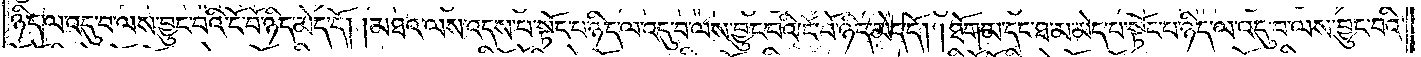ཉིད་ལ་འདུ་བ་ལས་བྱུང་བའི་ངོ་བོ་ཉིད་མེད་དོ། །མཐའ་ལས་འདས་པ་སྟོང་པ་ཉིད་ལ་འདུ་བ་ལས་བྱུང་བའི་ངོ་བོ་ཉིད་མེད་དོ། །ཐོག་མ་དང་ཐ་མ་མེད་པ་སྟོང་པ་ཉིད་ལ་འདུ་བ་ལས་བྱུང་བའི་
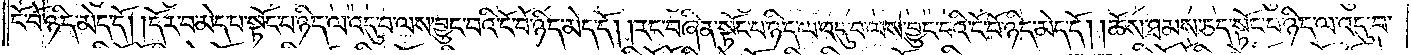ངོ་བོ་ཉིད་མེད་དོ། དོར་བ་མེད་པ་སྟོང་པ་ཉིད་ལ་འདུ་བ་ལས་བྱུང་བའི་ངོ་བོ་ཉིད་མེད་དོ། །རང་བཞིན་སྟོང་པ་ཉིད་ལ་འདུ་པ་ལས་བྱུང་བའི་ངོ་བོ་ཉིད་མེད་དོ། །ཆོས་ཐམས་ཅད་སྟོང་པ་ཉིད་ལ་འདུ་བ་
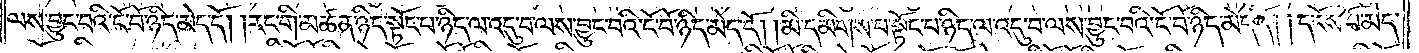ལས་བྱུང་བའི་ངོ་བོ་ཉིད་མེད་དོ། །རང་གི་མཚན་ཉིད་སྟོང་པ་ཉིད་ལ་འདུ་བ་ལས་བྱུང་བའི་ངོ་བོ་ཉིད་མེད་དོ། །མི་དམིགས་པ་སྟོང་པ་ཉིད་ལ་འདུ་བ་ལས་བྱུང་བའི་ངོ་བོ་ཉིད་མེད་དོ། །དངོས་པོ་མེད་
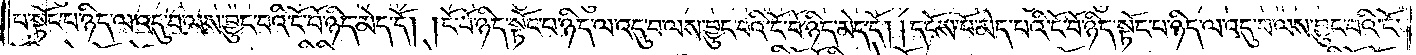པ་སྟོང་པ་ཉིད་ལ་འདུ་བ་ལས་བྱུང་བའི་ངོ་བོ་ཉིད་མེད་དོ། །ངོ་བོ་ཉིད་སྟོང་པ་ཉིད་ལ་འདུ་བ་ལས་བྱུང་བའི་ངོ་བོ་ཉིད་མེད་དོ། །དངོས་པོ་མེད་པའི་ངོ་བོ་ཉིད་སྟོང་པ་ཉིད་ལ་འདུ་བ་ལས་བྱུང་བའི་ངོ་
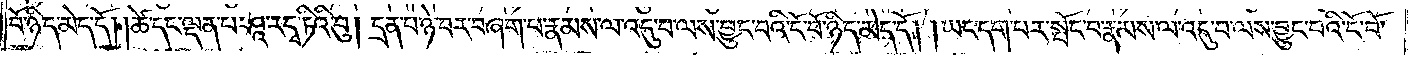བོ་ཉིད་མེད་དོ། །ཚེ་དང་ལྡན་པ་ཤཱ་ར་དྭ་ཏིའི་བུ། དྲན་པ་ཉེ་བར་བཞག་པ་རྣམས་ལ་འདུ་བ་ལས་བྱུང་བའི་ངོ་བོ་ཉིད་མེད་དོ། །ཡང་དག་པར་སྤོང་བ་རྣམས་ལ་འདུ་བ་ལས་བྱུང་བའི་ངོ་བོ་
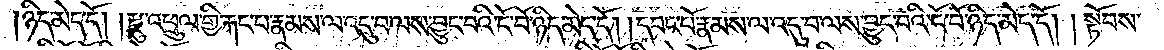ཉིད་མེད་དོ། །རྫུ་འཕྲུལ་གྱི་རྐང་པ་རྣམས་ལ་འདུ་བ་ལས་བྱུང་བའི་ངོ་བོ་ཉིད་མེད་དོ། །དབང་པོ་རྣམས་ལ་འདུ་བ་ལས་བྱུང་བའི་ངོ་བོ་ཉིད་མེད་དོ། །སྟོབས་
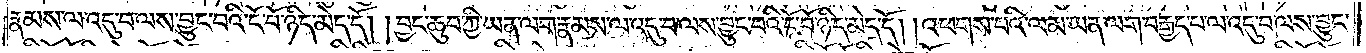རྣམས་ལ་འདུ་བ་ལས་བྱུང་བའི་ངོ་བོ་ཉིད་མེད་དོ། །བྱང་ཆུབ་ཀྱི་ཡན་ལག་རྣམས་ལ་འདུ་བ་ལས་བྱུང་བའི་ངོ་བོ་ཉིད་མེད་དོ། །འཕགས་པའི་ལམ་ཡན་ལག་བརྒྱད་པ་ལ་འདུ་བ་ལས་བྱུང་
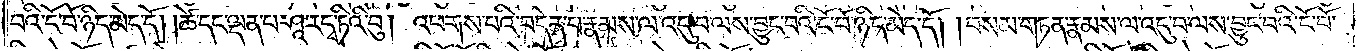བའི་ངོ་བོ་ཉིད་མེད་དོ། །ཚེ་དང་ལྡན་པ་ཤཱ་ར་དྭ་ཏིའི་བུ། འཕགས་པའི་བདེན་པ་རྣམས་ལ་འདུ་བ་ལས་བྱུང་བའི་ངོ་བོ་ཉིད་མེད་དོ། །བསམ་གཏན་རྣམས་ལ་འདུ་བ་ལས་བྱུང་བའི་ངོ་བོ་
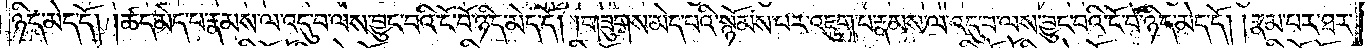ཉིད་མེད་དོ། །ཚད་མེད་པ་རྣམས་ལ་འདུ་བ་ལས་བྱུང་བའི་ངོ་བོ་ཉིད་མེད་དོ། །གཟུགས་མེད་པའི་སྙོམས་པར་འཇུག་པ་རྣམས་ལ་འདུ་བ་ལས་བྱུང་བའི་ངོ་བོ་ཉིད་མེད་དོ། །རྣམ་པར་ཐར་
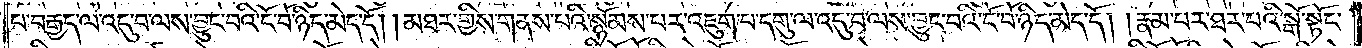པ་བརྒྱད་ལ་འདུ་བ་ལས་བྱུང་བའི་ངོ་བོ་ཉིད་མེད་དོ། །མཐར་གྱིས་གནས་པའི་སྙོམས་པར་འཇུག་པ་དགུ་ལ་འདུ་བ་ལས་བྱུང་བའི་ངོ་བོ་ཉིད་མེད་དོ། །རྣམ་པར་ཐར་པའི་སྒོ་སྟོང་
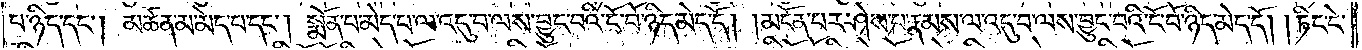པ་ཉིད་དང༌། མཚན་མ་མེད་པ་དང༌། སྨོན་པ་མེད་པ་ལ་འདུ་བ་ལས་བྱུང་བའི་ངོ་བོ་ཉིད་མེད་དོ། །མངོན་པར་ཤེས་པ་རྣམས་ལ་འདུ་བ་ལས་བྱུང་བའི་ངོ་བོ་ཉིད་མེད་དོ། །ཏིང་ངེ་
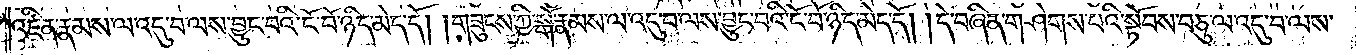འཛིན་རྣམས་ལ་འདུ་བ་ལས་བྱུང་བའི་ངོ་བོ་ཉིད་མེད་དོ། །གཟུངས་ཀྱི་སྒོ་རྣམས་ལ་འདུ་བ་ལས་བྱུང་བའི་ངོ་བོ་ཉིད་མེད་དོ། །དེ་བཞིན་གཤེགས་པའི་སྟོབས་བཅུ་ལ་འདུ་བ་ལས་
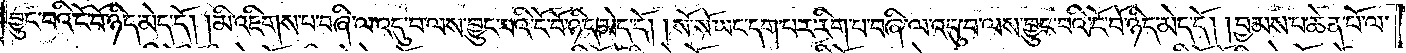བྱུང་བའི་ངོ་བོ་ཉིད་མེད་དོ། །མི་འཇིགས་པ་བཞི་ལ་འདུ་བ་ལས་བྱུང་བའི་ངོ་བོ་ཉིད་མེད་དོ། །སོ་སོ་ཡང་དག་པར་རིག་པ་བཞི་ལ་འདུ་བ་ལས་བྱུང་བའི་ངོ་བོ་ཉིད་མེད་དོ། །བྱམས་པ་ཆེན་པོ་ལ་
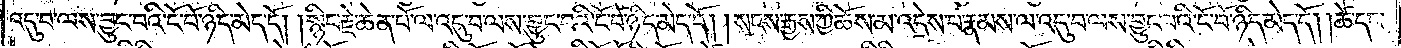འདུ་བ་ལས་བྱུང་བའི་ངོ་བོ་ཉིད་མེད་དོ། །སྙིང་རྗེ་ཆེན་པོ་ལ་འདུ་བ་ལས་བྱུང་བའི་ངོ་བོ་ཉིད་མེད་དོ། །སངས་རྒྱས་ཀྱི་ཆོས་མ་འདྲེས་པ་རྣམས་ལ་འདུ་བ་ལས་བྱུང་བའི་ངོ་བོ་ཉིད་མེད་དོ། །ཚེ་དང་
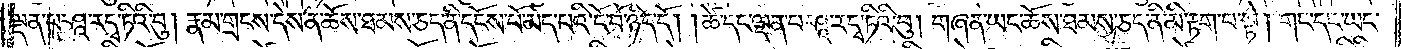ལྡན་པ་ཤཱ་ར་དྭ་ཏིའི་བུ། རྣམ་གྲངས་དེས་ན་ཆོས་ཐམས་ཅད་ནི་དངོས་པོ་མེད་པའི་ངོ་བོ་ཉིད་དོ། །ཚེ་དང་ལྡན་པ་ཤཱ་ར་དྭ་ཏིའི་བུ། གཞན་ཡང་ཆོས་ཐམས་ཅད་ནི་མི་རྟག་པ་སྟེ། གང་དང་ཡང་
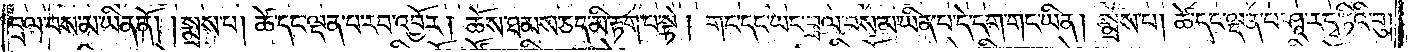བྲལ་བས་མ་ཡིན་ནོ། །སྨྲས་པ། ཚེ་དང་ལྡན་པ་རབ་འབྱོར། ཆོས་ཐམས་ཅད་མི་རྟག་པ་སྟེ། གང་དང་ཡང་བྲལ་བས་མ་ཡིན་པ་དེ་དག་གང་ཡིན། སྨྲས་པ། ཚེ་དང་ལྡན་པ་ཤཱ་ར་དྭ་ཏིའི་བུ།
